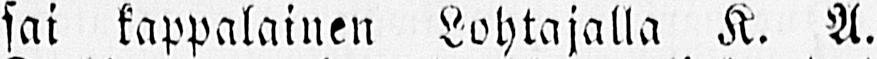sai kappalainen Lohtajalla K. A.
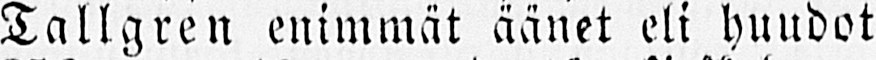Tallgren enimmät äänet eli huudot
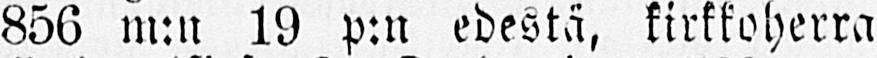856 m:n 19 p:n edestä, kirkkoherra
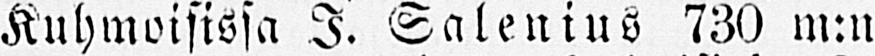Kuhmoisissa I. Salenius 730 m:n
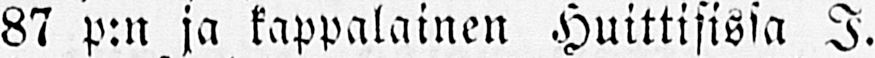87 p:n ja kappalainen Huittisissa I.
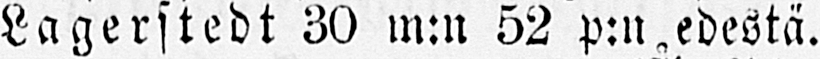Lagerstedt 30 m:n 52 p:n edestä.
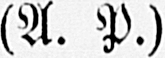(A. P.)
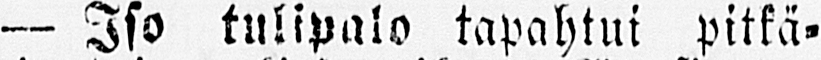— Iso tulipalo tapahtui pitkä-
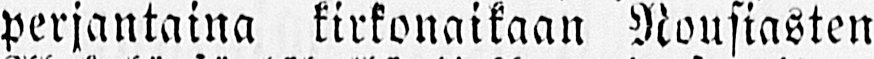perjantaina kirkonaikaan Nousiasten
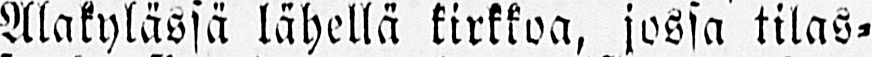Alakylässä lähellä kirkkoa, jossa tilas-
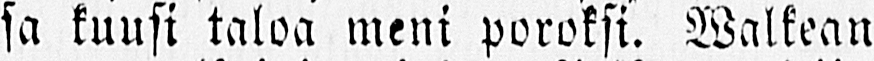sa kuusi taloa meni poroksi. Walkean
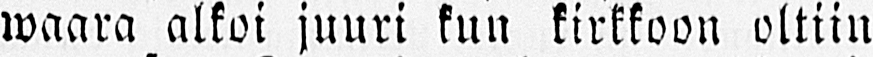waara alkoi juuri kun kirkkoon oltiin
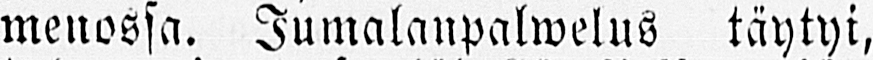menossa. Jumalanpalwelus täytyi,
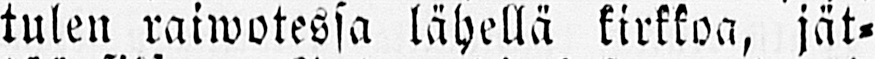tulen raiwotessa lähellä kirkkoa, jät-
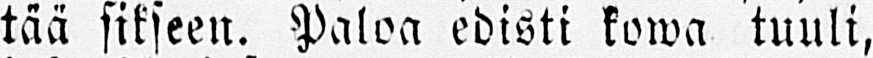tää sikseen. Paloa edisti kowa tuuli,
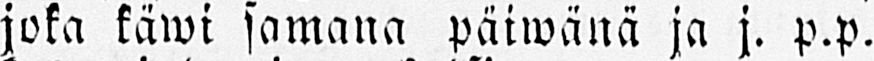joka käwi samana päiwänä ja j. p.p.
